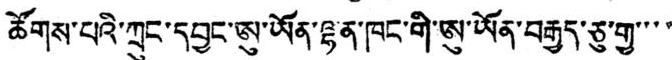ཚོགས་པའི་ཀྲུང་དབྱང་ཨུ་ཡོན་ལྷན་ཁང་གི་ཨུ་ཡོན་བརྒྱད་ཅུ་གྱ་་་་
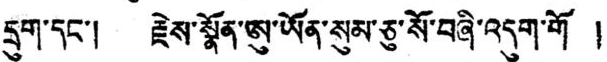དྲུག་དང་། རྗེས་སྣོན་ཨུ་ཡོན་སུམ་ཅུ་སོ་བཞི་འདུག་གོ །
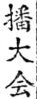播大会
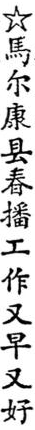☆馬尔康县春播工作又早又好
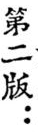第二版：
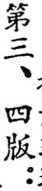第三、四版：
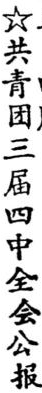☆共青团三届四中全会公报
